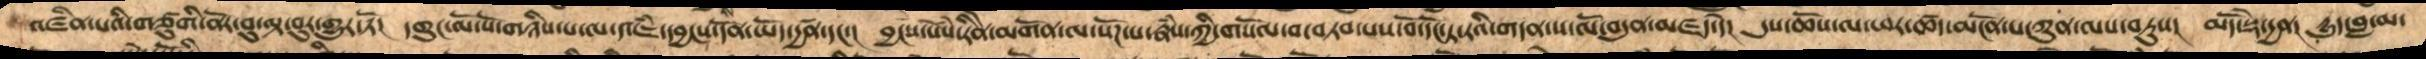འཛིན་པའི་གཙུགི་ནོར་བུ་ལྟ་བུར་གྱུར་ཏོ།  དགུང་ལོ་སོ་གཉིས་པ་ལ་འཇཾ་དབྱངས་དོན་ཡོད་དྱཚན་དང་།  བྱངས་སེཾས་རིེན་མགོན་་ལ་སོཌ་པ་རྣཾས་ཀྱི་གསོལ་བ་བཏབ་པས་བོ་དོང་ཏ་རའི་གདན་ས་ལོ་བདུན་མཛད་དོ།  དུས་ཆོས་ལ་ཕར་ཚད་མངོན་པ་ཀུན་ལས་བཏུས།  མདོ་སྡེ་དྱན།  དྱུད་བླ་མ་
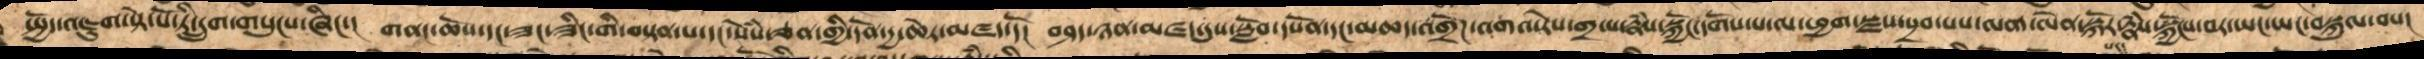སྤྱོད་འཇུག་སྟེ་པོ་ཏི་དྲུག་གསུངས་ཤིང་།  གནང་ཆོས་དང་ཟང་ཟིང་གི་བསྟན་པ་དང་སེཾས་ཅན་གྱི་དོན་དྱ་ཆེར་མཛད་དོ།  བཤད་ཉན་མཛད་དུས་སློབ་དཔོན་དང་མཆད་འགྲོཌ་འགའ་རེས་གྲ་པ་རྣཾས་སྐྱོང་དགོས་པ་ལ་ཕྱག་སྫས་སྲབ་པས་ལག་ལེན་སྐོར་རྣཾས་སྐྱོངས་བར་ཡང་ཡང་བསྐུལ་བས།
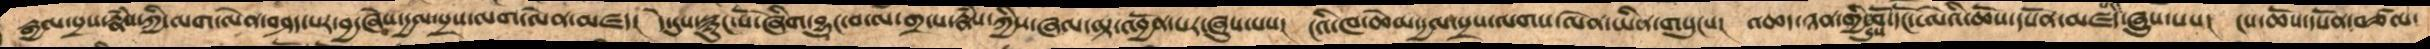རྒྱལ་སྲས་རྣཾས་ཀྱི་ལག་ལེན་བཤད་པར་བྱ་ཞེས་དྱལ་སྲས་ལག་ལེན་མཛད། དེ་དུས་སྙུང་པོ་ཞིག་བྱུང་བ་ལ་གྲྭ་པ་རྣཾས་ཀྱིས་ཞལ་ལྟ་འབྱོན་པར་ཞུས་པས། ངའི་ཁ་ཆེམ་དྱལ་སྲས་ལགས་ལེན་ཡིན་གསུངས། འཆད་ཉན་གྱི་དུས་བོ་དོང་ཨེའི་ཆོས་དཔོན་མཛད་པར་ཞུས་པས། ངས་ཆོས་དཔོན་བཙལ་
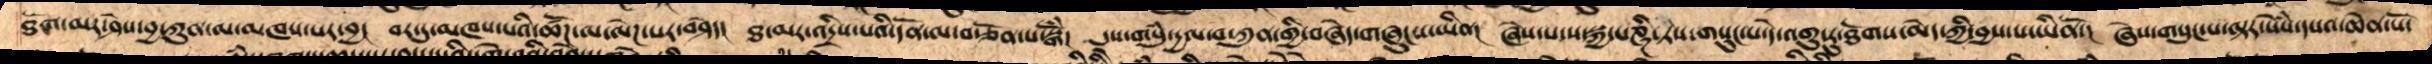ཐོག་མར་ཤེས་བྱ་ཀུན་ལ་མཁས་པར་བྱ།  བར་དུ་མཁས་པའི་ཚོཌ་ལ་ལེཌ་པར་བཤེད།  ཐ་མར་འདྲིས་པའི་དོན་ལ་བརྩོན་པ་སྒོཾ།  དུས་གསུཾ་དྱལ་བ་ཀུན་གྱི་བཞེད་གཞུངས་ཡིན།  ཞེས་པ་ས་སྐྱ་པཎྚི་ཏས་གསུང་པ་དེ་འགུ་རུ་ཐོགས་མེད་ཀྱི་བྱས་པ་ཡིནོ་།  ཞེས་གསུང་པ་ལྟར་སེཾས་དཔའ་ཆེན་པོ་
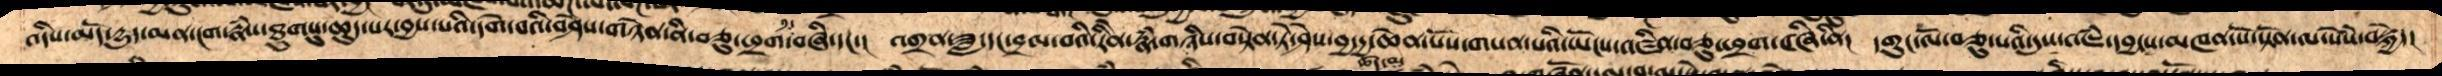འདིས་མདོ་དྱུད་མན་ངག་རྣཾས་ཐུགསུ་ཆུད་པར་བྱས་པའི་དགེ་བའི་བཤེས་གཉེན་ནི་བཅུ་ཕྲག་བཞི་དང་། འགྲན་ཟླ་དང་བྲལ་བའི་རིེན་རྣཾ་གཉིས་བསྟེན་ཏེ་ཤེས་བྱ་དྱ་ཆེན་པོས་གསན་པའི་ཡོངས་འཛིན་བཅུ་ཕྲག་བཞི་ནི། དགུང་ལོ་བཅུ་པའི་དུས་འཇཾ་དབྱངས་མཁན་པོ་སྟོན་ལ་སེཾས་བསྐྱེད།
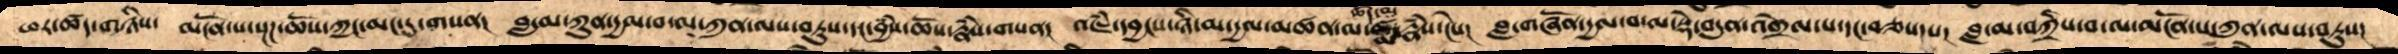ཕར་ཚད་གཉིས་ མངོན་པ་སྔཌ་ཆོས་ཀྱང་མང་དུ་གསན། བླ་མ་ཀུན་དྱལ་བ་ལ་ཀུན་ལས་བཏུས་དང་བྱཾས་ཆོས་རྣཾས་གསན། འཇཾ་དབྱངས་ཉི་མ་དྱལ་མཚན་མ་ཚད་མ་རྣཾ་ངེས། བླ་གཞོན་དྱལ་བ་ལ་སྡེ་བདུན་འགྲེལ་པ་དང་བཅས་པ། བླ་མ་བཀྲིས་བ་ལ་མངོན་པ་ཀུན་ལས་བཏུས།
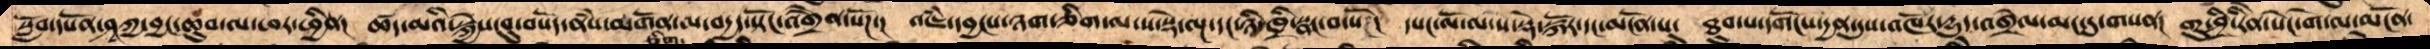སློབ་དཔོན་ཤཱཀྱ་བྱང་ཆུབ་ལ་ཕར་ཕྱིན། ཚད་མའི་སྐྱེས་བུ་བསོད་ནཾས་མགོན་ལ་བདྱད་སྟོང་འགྲཻན་སོཌ། འཇཾ་དབྱངས་ཉག་ཅིག་ལ་ས་སྡེ་ལྔ་དང་ཉི་ཁྲི་སྣང་བ་སོཌ།  དཔང་ལོ་མ་སེ་སྡེ་སྐོར་དང་མངོན་པ། ཐུབ་པ་དགོངས་དྱན་དུས་འཁོར་དྱུད་འགྲེལ་མང་དུ་གསན། གུ་ཤྲཱི་རིནེ་སེང་གེ་ལ་མངོན་
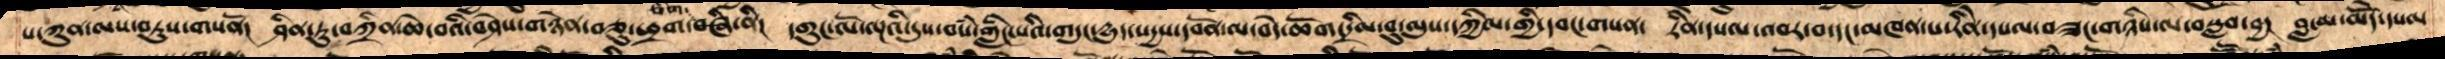པ་ཀུན་ལས་བཏུས་གསནོ། ཤིན་ཏུ་བཀྲིན་ཆེ་བའི་བཤེས་གཉེན་བཅུ་ཕྲག་བཞི་ནི། དགུང་ལོ་ལྔའི་དུས་བསཾ་གླིང་པའི་གདུང་དྱུད་སདྱས་དབོན་ལ་བདེ་མཆོག་དྲིལ་བུ་ལུས་དཀྱིལ་གྱི་དབང་གསན། རིོནེ་དཔལ་འབར་བ་དང་མཁན་པ་རིེན་དཔལ་བཟང་གཉིས་ལ་བསླབ་བྱ། བླ་མ་མདོེ་དཔལ་
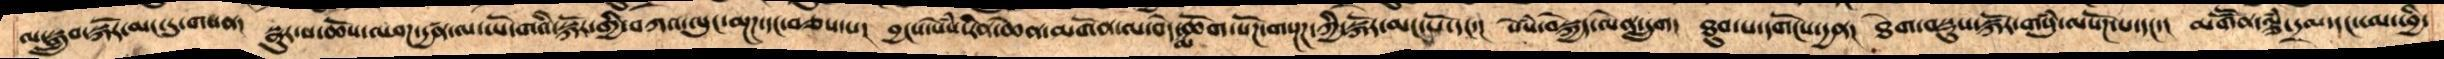ལ་སྒྲུབ་སྐོར་མང་དུ་གསན། སྣུར་པ་ཆོས་འཕཌ་དྱཚན་ལ་ཡོ་གའི་སྐོར་གྱི་བཀའ་ལུང་མྔཌ་དང་བཅས་པ། བྱང་སེཾས་རིན་ཆེན་མགོན་ལ་བདེ་མཆོག་སོཌ་གསྔཌ་ཀྱི་སྐོར་མང་པོ་དང་། སེཾས་སྐྱེད་ལེན་དྲུག། ཐུབ་པ་དགོངས་དྱན། ཐེག་བསྡུས་སྐོར་གསུཾ་ལསོཌ་པ་དང་། མགཽན་ལྕཾ་དྲལ་དང་ཨ་ཕྱི་
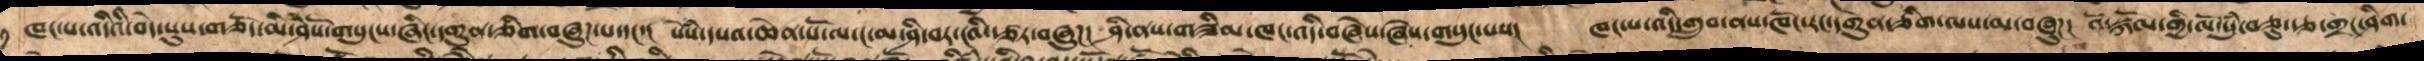ཁང་པ་འདིའི་བེད་སུས་གཅོད་མི་ཤེསོ་གསུངས་ཞིང་དགུན་ཅིག་བཞུཌ་པ་དང་།  སེཾས་དཔའ་ཆེན་པོ་ལ་ང་མ་ཤི་བར་ངའི་རྩར་བཞུཌ།  ཤི་ནས་གཟིམ་ཁང་འདི་བཞེས་ཞེས་གསུང་པས།   ཁང་པ་འདི་གྲུབ་ནས་ཁོང་རང་དགུན་ཅིག་ལས་མ་བཞུཌ།  འོ་སྐོལ་གྱི་ལོ་སུཾ་བཅུ་རྩ་གྲང་ཤིག་
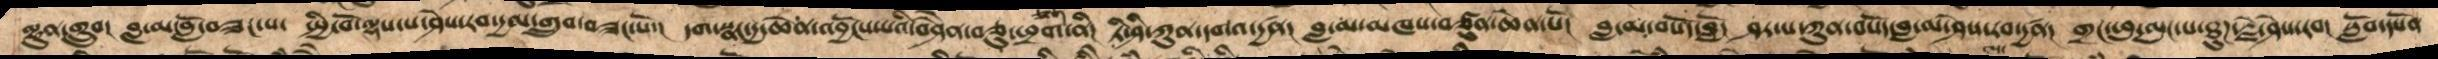ལྷུན་གྲུབ། བླ་མ་བློ་བཟང་པ་ སྤྱི་བོ་ལྷས་པ་ཤེས་རབ་དྱལ་གྲུབ་བཟང་པོ་། དག་སྣང་དྱ་ཆེན་འབྱོངས་པའི་བཤཻན་བཅུ་ཕྲག་ཅིག་ནི། ཏི་ཤི་ཀུན་དགའ་དྱཚན། བླ་མ་མཁས་བཙུན་ཆེན་པོ། བླ་མ་བསོད་བློ། ཤར་པ་ཀུན་བསོད་བླ་མ་ཤེས་རབ་དྱཚན། གྲང་ཕུ་ལུང་པ་ཐུཌ་རྗེ་ཤེས་རབ། སློབ་དཔོན་
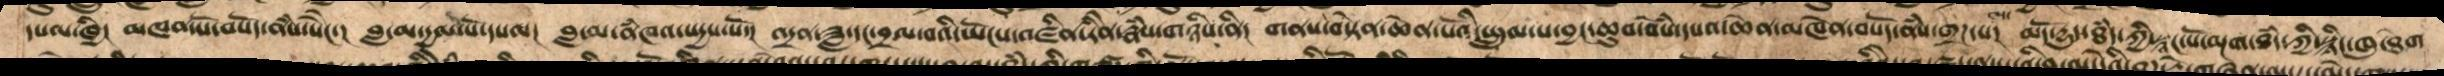དཔལ་ཁྱི། མཁན་པོ་བསོད་ནཾས་སཻང་། བླ་མ་དྱལ་པོ་དཔལ། བླ་མ་ནཾཁའ་སདྱས་སོ།  འདྲན་ཟླ་དང་བྲལ་བའི་ཡོངས་འཛིན་རིེན་རྣཾས་གཉིས་ནི། གནས་བརྟེན་ཆེན་པོའི་སྤྲུལ་པ་བྱང་ཆུབ་སེཾས་དཔའ་ཆེན་མཁེན་བསོད་ནཾས་གྲཌ་པ། མདོ་དྱུད་ཐཾད་ཀྱི་སྙང་པོ་མྔག་ཐཾད་ཀྱི་སྙིང་ཁུ་ཐེག་
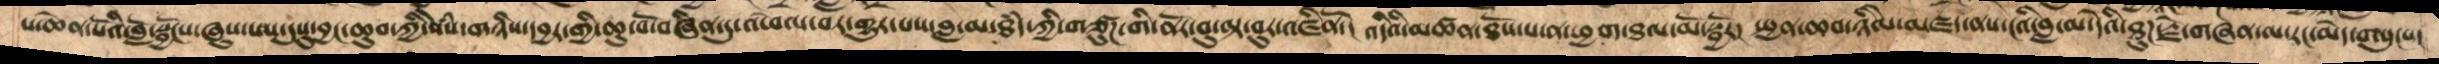པ་ཆེན་པོའི་བློ་སྦྱོངས་ཞུས་པས་དུསུ་བྱང་ཆུབ་ཀྱི་སེཾས་གཉིས་དབྱར་གྱི་ཆུ་བོ་བཞིན་དུ་འཕེལ་བར་གྱུར་པས་བླ་མ་ཐཾད་ཀྱི་གཙུཌ་གི་ནོར་བུ་ལྟ་བུར་འཛིནོ།  འདིའི་མཚན་ཐོས་པ་ན་ཕྱག་ཐལ་མོ་སྦྱར།  སྤྱན་ཆབ་ཉིལེ་མཛད་ནས་ངའི་བླ་མ་དེའི་ཐུཌ་རྗེ་གཞན་ལ་རང་མེད་གསུངས།
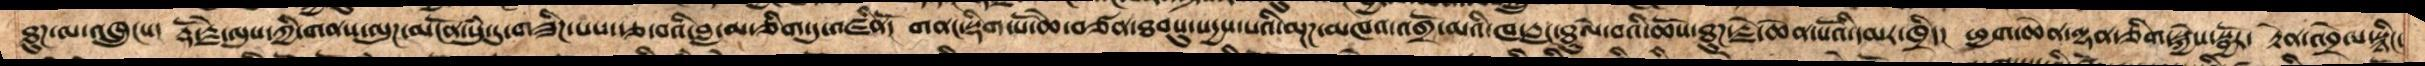ཐུཌ་ལ་འཁྲུངས།  རྡོ་རྗེ་ལུས་ཀྱི་གནས་ལུཌ་མངོན་སུཾ་དུ་གཟིཌ་པས་རྩ་བའི་བླ་མ་ཅིག་དུ་འཛིནོ།  གནང་སྡིག་པོ་ཆེ་བཙན་ཐབསུ་སདྱས་པའི་མྔཌ་མཁན་འགྲོ་མའི་ཁ་རླང་ཐུལ་བའི་ཆོས་ཐུཌ་རྗེ་ཆེན་པོའི་དམར་ཁྲིད།  ཕྱག་ཆེན་ལྷན་ཅིག་སྐྱེས་སྦྱོར།  རྟེན་འབྲེལ་སྙིང་
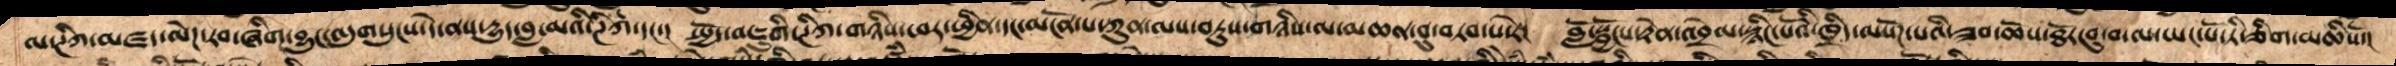ལ་ཊིཀ་མཛད་ལེཌ་རབ་ཞིག་བྱུང་འདུགསུངས་དེ་ནས་དྱུད་བླ་མའི་ཊིཀ་དང་།  སྤྱོད་འཇུགི་ཊིཀ་གཉིས་ཕར་ཕྱིན་དང་མངོན་པ་ཀུན་ལས་བཏུས་གཉིས་ལ་མཆན་བུ་བཏབ་པ་རེ།  བློ་སྦྱོངས་རྟེན་འབྲེལ་སྙིང་པོའི་ཁྲིད་ལསོཌ་པའི་ཟབ་ཆོས་ཐོར་བུ་བ་ལ་ཡང་པོ་ཏི་ཅིག་མཆིསོ་།
